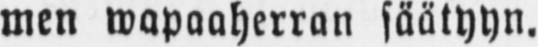men wapaaherran säätyyn.
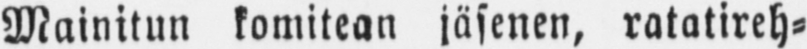Mainitun komitean jäsenen, ratatireh-
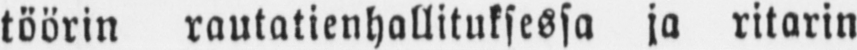töörin rautatienhallituksessa ja ritarin
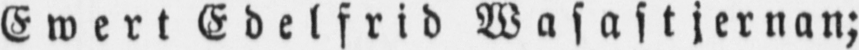Ewert Edelfrid Wasastjernan;
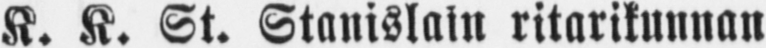K. K. St. Stanislain ritarikunnan
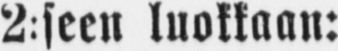2:seen luokkaan:
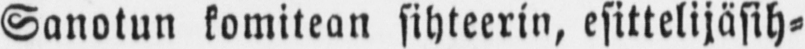Sanotun komitean sihteerin, esittelijäsih-
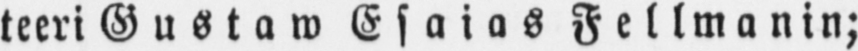teeri Gustaw Esaias Fellmanin;
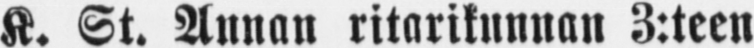K. St. Annan ritarikunnan 3:teen
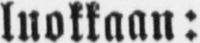luokkaan:
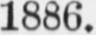1866.
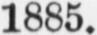1885.
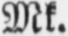Mk.
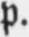p.
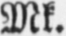Mk.
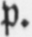p.
